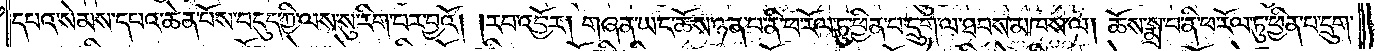དཔའ་སེམས་དཔའ་ཆེན་པོས་བདུད་ཀྱི་ལས་སུ་རིག་པར་བྱའོ། །རབ་འབྱོར། གཞན་ཡང་ཆོས་ཉན་པ་ནི་ཕ་རོལ་ཏུ་ཕྱིན་པ་དྲུག་ལ་ཐབས་མཁས་ལ། ཆོས་སྨྲ་བ་ནི་ཕ་རོལ་ཏུ་ཕྱིན་པ་དྲུག་
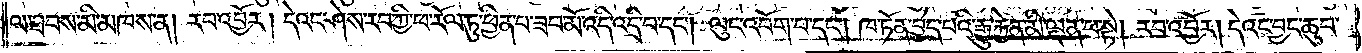ལ་ཐབས་མི་མཁས་ན། རབ་འབྱོར། དེའང་ཤེས་རབ་ཀྱི་ཕ་རོལ་ཏུ་ཕྱིན་པ་ཟབ་མོ་འདི་འདྲི་བ་དང༌། ལུང་འབོག་པ་དང༌། ཁ་ཏོན་བྱེད་པའི་རྒྱུ་རྐྱེན་མི་ལྡན་པ་སྟེ། རབ་འབྱོར། དེའང་བྱང་ཆུབ་
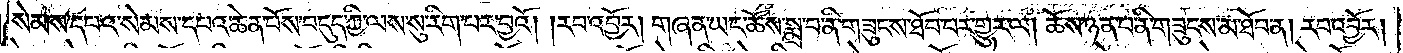སེམས་དཔའ་སེམས་དཔའ་ཆེན་པོས་བདུད་ཀྱི་ལས་སུ་རིག་པར་བྱའོ། །རབ་འབྱོར། གཞན་ཡང་ཆོས་སྨྲ་བ་ནི་གཟུངས་ཐོབ་པར་གྱུར་ལ། ཆོས་ཉན་པ་ནི་གཟུངས་མ་ཐོབ་ན། རབ་འབྱོར།
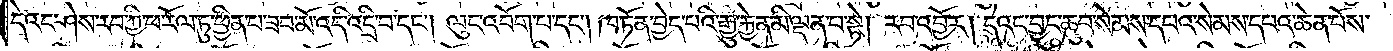དེའང་ཤེས་རབ་ཀྱི་ཕ་རོལ་ཏུ་ཕྱིན་པ་ཟབ་མོ་འདི་འདྲི་བ་དང༌། ལུང་འབོག་པ་དང༌། ཁ་ཏོན་བྱེད་པའི་རྒྱུ་རྐྱེན་མི་ལྡན་པ་སྟེ། རབ་འབྱོར། དེའང་བྱང་ཆུབ་སེམས་དཔའ་སེམས་དཔའ་ཆེན་པོས་
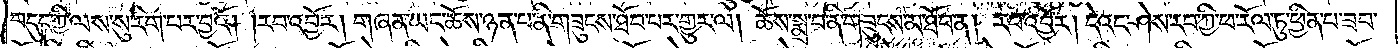བདུད་ཀྱི་ལས་སུ་རིག་པར་བྱའོ། །རབ་འབྱོར། གཞན་ཡང་ཆོས་ཉན་པ་ནི་གཟུངས་ཐོབ་པར་གྱུར་ལ། ཆོས་སྨྲ་བ་ནི་གཟུངས་མ་ཐོབ་ན། རབ་འབྱོར། དེའང་ཤེས་རབ་ཀྱི་ཕ་རོལ་ཏུ་ཕྱིན་པ་ཟབ་
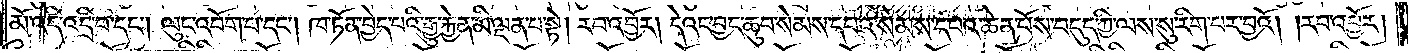མོ་འདི་འདྲི་བ་དང༌། ལུང་འབོག་པ་དང༌། ཁ་ཏོན་བྱེད་པའི་རྒྱུ་རྐྱེན་མི་ལྡན་པ་སྟེ། རབ་འབྱོར། དེའང་བྱང་ཆུབ་སེམས་དཔའ་སེམས་དཔའ་ཆེན་པོས་བདུད་ཀྱི་ལས་སུ་རིག་པར་བྱའོ། །རབ་འབྱོར།
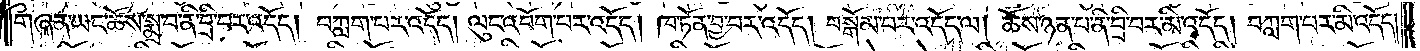གཞན་ཡང་ཆོས་སྨྲ་བ་ནི་བྲི་བར་འདོད། ཀླག་པར་འདོད། ལུང་དབོག་པར་འདོད། ཁ་ཏོན་བྱ་བར་འདོད། བསྒོམ་པར་འདོད་ལ། ཆོས་ཉན་པ་ནི་བྲི་བར་མི་འདོད། བཀླག་པར་མི་འདོད།
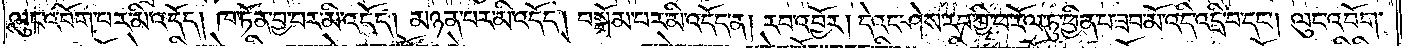ལུང་དབོག་པར་མི་འདོད། ཁ་ཏོན་བྱ་བར་མི་འདོད། མཉན་པར་མི་འདོད། བསྒོམ་པར་མི་འདོད་ན། རབ་འབྱོར། དེའང་ཤེས་རབ་ཀྱི་ཕ་རོལ་ཏུ་ཕྱིན་པ་ཟབ་མོ་འདི་དྲི་བ་དང༌། ལུང་འབོག་
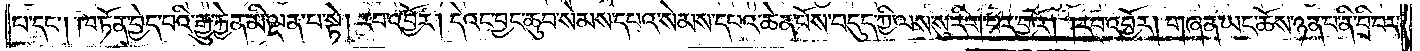པ་དང༌། ཁ་ཏོན་བྱེད་པའི་རྒྱུ་རྐྱེན་མི་ལྡན་པ་སྟེ། རབ་འབྱོར། དེའང་བྱང་ཆུབ་སེམས་དཔའ་སེམས་དཔའ་ཆེན་པོས་བདུད་ཀྱི་ལས་སུ་རིག་པར་བྱའོ། །རབ་འབྱོར། གཞན་ཡང་ཆོས་ཉན་པ་ནི་བྲི་བར་
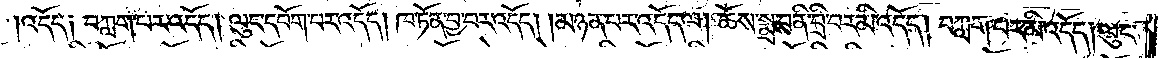འདོད༑ བཀླག་པར་འདོད། ལུང་དབོག་པར་འདོད། ཁ་ཏོན་བྱ་བར་འདོད། མཉན་པར་འདོད་ལ། ཆོས་སྨྲ་བ་ནི་བྲི་བར་མི་འདོད། ཀླག་པར་མི་འདོད། ལུང་
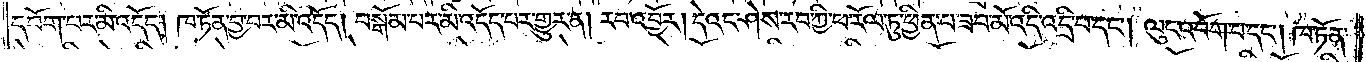དབོག་པར་མི་འདོད། ཁ་ཏོན་བྱ་བར་མི་འདོད། བསྒོམ་པར་མི་འདོད་པར་གྱུར་ན། རབ་འབྱོར། དེའང་ཤེས་རབ་ཀྱི་ཕ་རོལ་ཏུ་ཕྱིན་པ་ཟབ་མོ་འདི་འདྲི་བ་དང༌། ལུང་འབོག་པ་དང༌། ཁ་ཏོན་
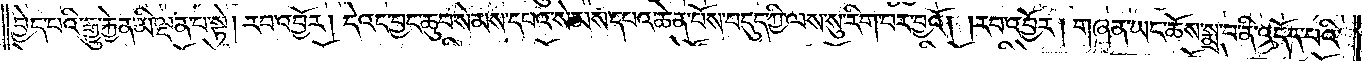བྱེད་པའི་རྒྱུ་རྐྱེན་མི་ལྡན་པ་སྟེ། རབ་འབྱོར། དེའང་བྱང་ཆུབ་སེམས་དཔའ་སེམས་དཔའ་ཆེན་པོས་བདུད་ཀྱི་ལས་སུ་རིག་པར་བྱའོ། །རབ་འབྱོར། གཞན་ཡང་ཆོས་སྨྲ་བ་ནི་འདོད་པའི་
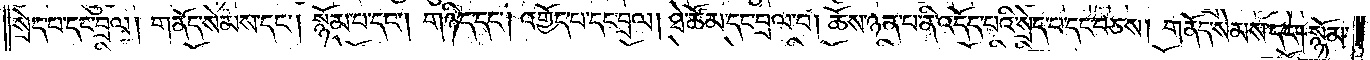སྲེད་པ་དང་བྲལ། གནོད་སེམས་དང༌། སྙོམ་པ་དང༌། གཉིད་དང༌། འགྱོད་པ་དང་བྲལ། ཐེ་ཚོམ་དང་བྲལ་བ། ཆོས་ཉན་པ་ནི་འདོད་པའི་སྲེད་པ་དང་བཅས། གནོད་སེམས་དང༌། སྙོམ་
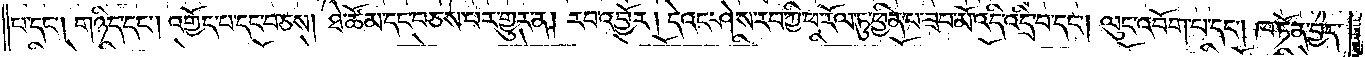པ་དང༌། གཉིད་དང༌། འགྱོད་པ་དང་བཅས། ཐེ་ཚོམ་དང་བཅས་པར་གྱུར་ན། རབ་འབྱོར། དེའང་ཤེས་རབ་ཀྱི་ཕ་རོལ་ཏུ་ཕྱིན་པ་ཟབ་མོ་འདི་འདྲི་བ་དང༌། ལུང་འབོག་པ་དང༌། ཁ་ཏོན་བྱེད་
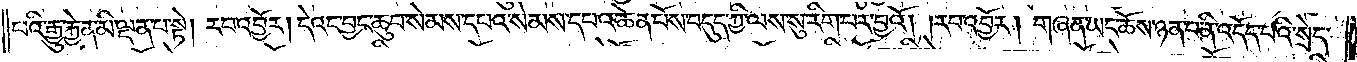པའི་རྒྱུ་རྐྱེན་མི་ལྡན་པ་སྟེ། རབ་འབྱོར། དེའང་བྱང་ཆུབ་སེམས་དཔའ་སེམས་དཔའ་ཆེན་པོས་བདུད་ཀྱི་ལས་སུ་རིག་པར་བྱའོ། །རབ་འབྱོར། གཞན་ཡང་ཆོས་ཉན་པ་ནི་འདོད་པའི་སྲེད་
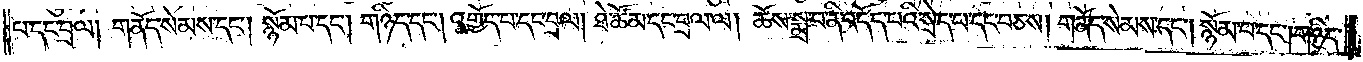པ་དང་བྲལ། གནོད་སེམས་དང༌། སྙོམ་པ་དང༌། གཉིད་དང༌། འགྱོད་པ་དང་བྲལ། ཐེ་ཚོམ་དང་བྲལ་ལ། ཆོས་སྨྲ་བ་ནི་འདོད་པའི་སྲེད་པ་དང་བཅས། གནོད་སེམས་དང༌། སྙོམ་པ་དང༌། གཉིད་
